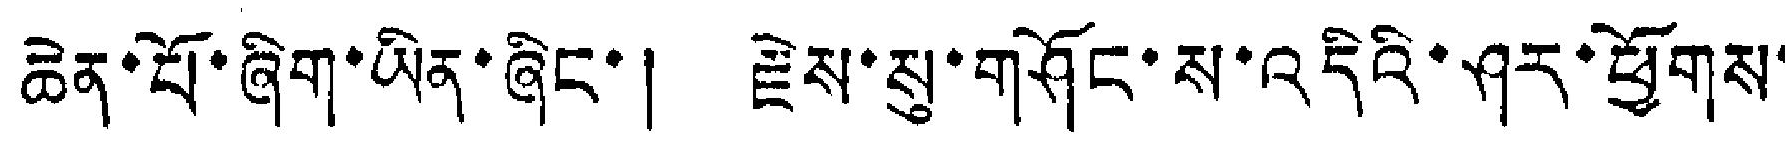ཆེན་པོ་ཞིག་ཡིན་ཞིང་། རྗེས་སུ་གཤོང་ས་འདིའི་ཤར་ཕྱོགས་
